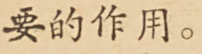要的作用。
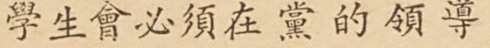學生會必須在黨的領導
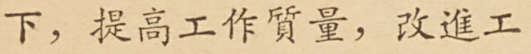下，提高工作質量，改進工
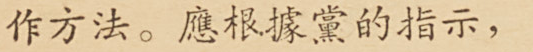作方法。應根據黨的指示，
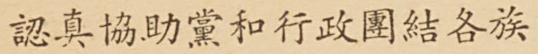認真協助黨和行政團結各族
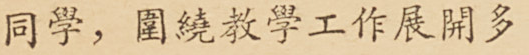同學，圍繞教學工作展開多
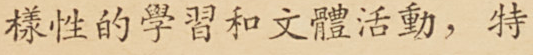樣性的學習和文體活動，特
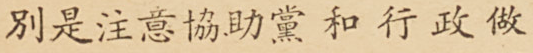別是注意協助黨和行政做
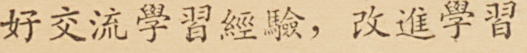好交流學習經驗，改進學習
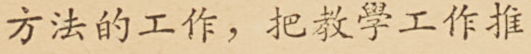方法的工作，把教學工作推
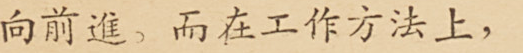向前進。而在工作方法上，
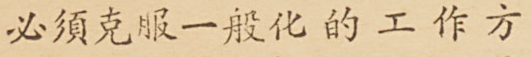必須克服一般化的工作方
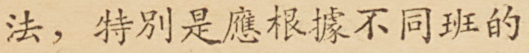法，特別是應根據不同班的
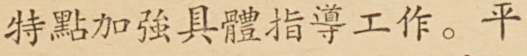特點加強具體指導工作。平
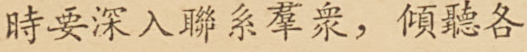時要深入聯系羣衆，傾聽各
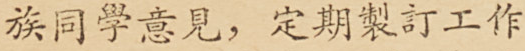族同學意見，定期製定工作
